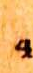4
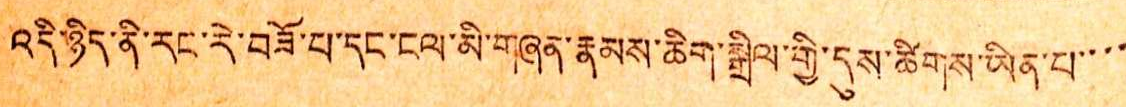འདི་ཉིད་ནི་རང་རེ་བཟོ་པ་དང་ངལ་མི་གཞན་རྣམས་ཆིག་སྒྲིལ་གྱི་དུས་ཚིགས་ཡིན་པ་་་་
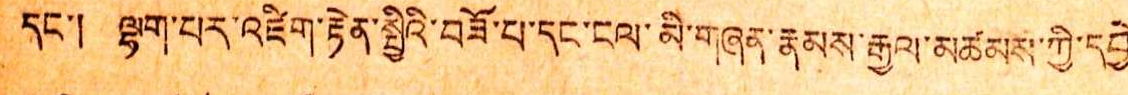དང་། ལྷག་པར་འཛིག་རྟེན་སྤྱིའི་བཟོ་པ་དང་ངལ་མི་བཞན་རྣམས་རྒྱལ་མཚམལ་ཀྱི་དབྱེ་
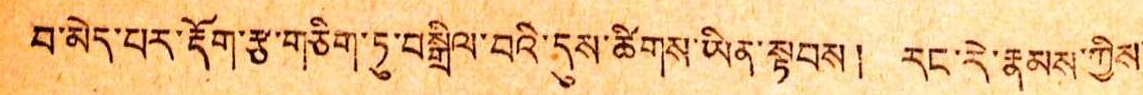བ་མེད་པར་རྡོག་རྩ་གཅིག་ཏུ་བསྒྲིལ་བའི་དུས་ཚིགས་ཡིན་སྟབས། རང་རེ་རྣམས་ཀྱིས་
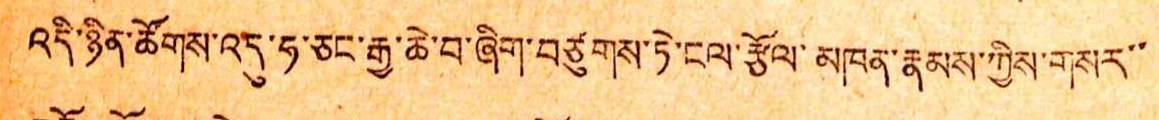འདི་ཉིན་ཚོགས་འདུ་ཧ་ཅང་རྒྱ་ཆེ་བ་ཞིག་བཙུགས་ཏེ་ངལ་རྩོལ་མཁན་རྣམས་ཀྱིས་གསར་་
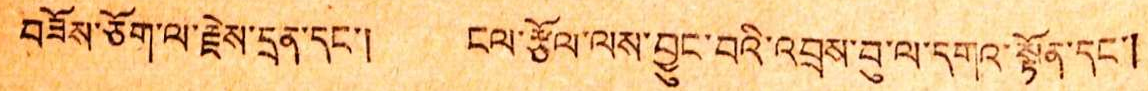བཟོས་ཅོག་ལ་རྗེས་དྲན་དང་། ངལ་རྩོལ་ལས་བྱུང་བའི་འབྲས་བུ་ལ་དགའ་སྟོན་དང་།
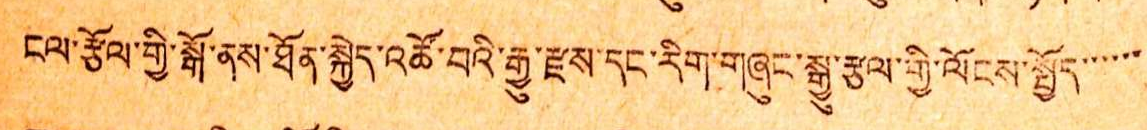ངལ་རྩོལ་གྱི་སྒོ་ནས་ཐོན་སྐྱེད་འཚོ་བའི་རྒྱུ་རྫས་དང་རིག་གཞུང་སྒྱུ་རྩལ་གྱི་ལོང་སྤྱོད་་་་་་
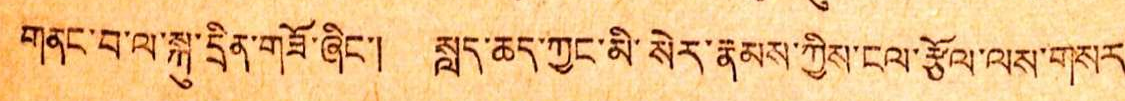གནང་བ་ལ་སྐུ་དྲིན་གཟོ་ཞིང་། སླད་ཆད་ཀྱང་མི་སེར་རྣམས་ཀྱིས་ངལ་རྩོལ་ལས་གསར་
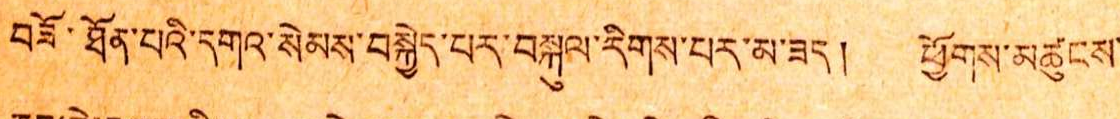བཟོ་ཐོན་པའི་དགའ་སེམས་བསྐྱེད་པར་བསྐུལ་རིགས་པར་མ་ཟད། ཕྱོགས་མཚུངས་
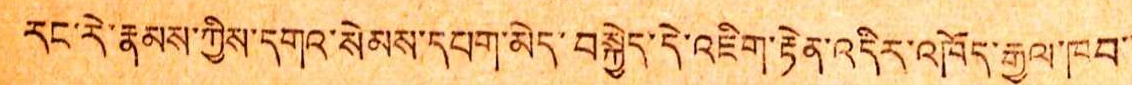རང་རེ་རྣམས་ཀྱིས་དགའ་སེམས་དཔག་མེད་བསྐྱེད་དེ་འཇིག་རྟེན་འདིར་འཁོད་རྒྱལ་ཁབ་་
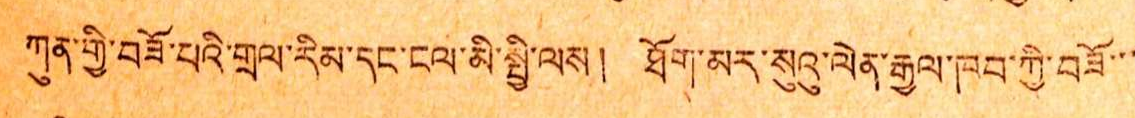ཀུན་གྱི་བཟོ་པའི་གྲལ་རིམ་དང་ངལ་མི་སྤྱི་ལས། ཐོག་མར་སུའུ་ལེན་རྒྱལ་ཁབ་ཀྱི་བཟོ་་་
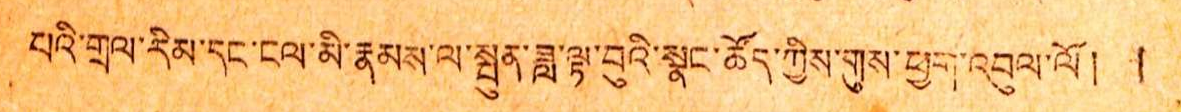པའི་གྲལ་རིམ་དང་ངལ་མི་རྣམས་ལ་སྤུན་ཟླ་ལྟ་བུའི་སྣང་ཚོད་ཀྱིས་གུས་ཕྱག་འབུལ་ལོ ། །
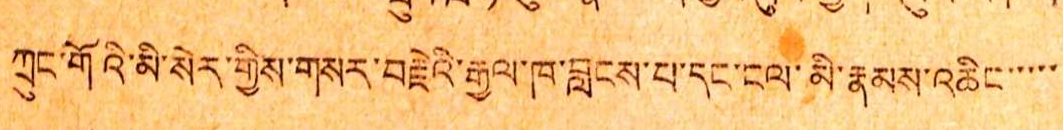ཀྲུང་གོའི་མི་སེར་གྱིས་གསར་བརྗེའི་རྒྱལ་ཁ་བླངས་པ་དང་ངལ་མི་རྣམས་འཆིང་་་་་
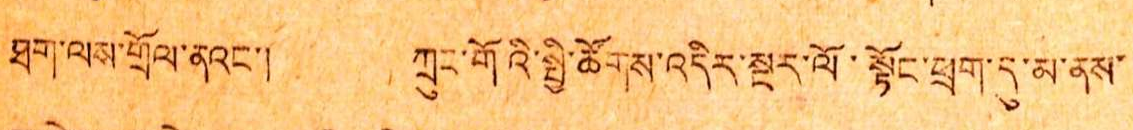ཐག་ལས་གྲོལ་ནའང་། ཀྲུང་གོའི་སྤྱི་ཚོགས་འདིར་སྔར་ལོ་སྟོང་ཕྲག་དུ་མ་ནས་
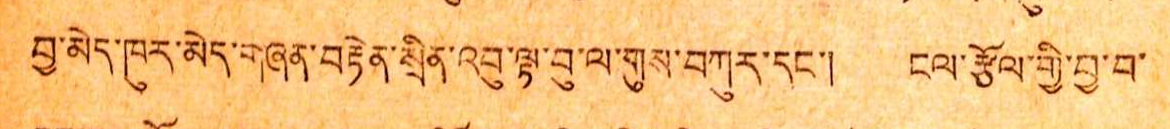བྱ་མེད་ཁུར་མེད་གཞན་བརྟེན་སྲིན་འབུ་ལྟ་བུ་ལ་གུས་བཀུར་དང་། ངལ་རྩོལ་གྱི་བྱ་བ་
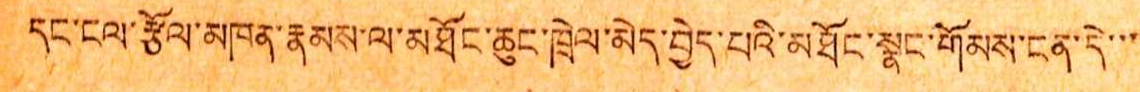དང་ངལ་རྩོལ་མཁན་རྣམས་ལ་མཐོང་ཆུང་ཁྲེལ་མེད་བྱེད་པའི་མཐོང་སྣང་གོམས་ངན་དེ་་་
